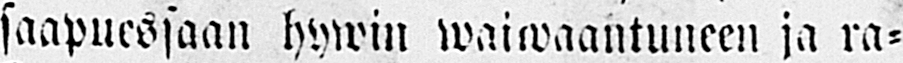saapuessaan hywin waiwaantuneen ja ra-
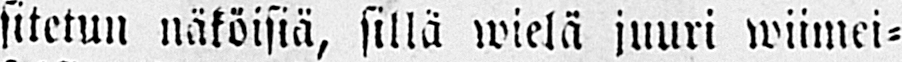sitetun näköisiä, sillä wielä juuri wiimei-
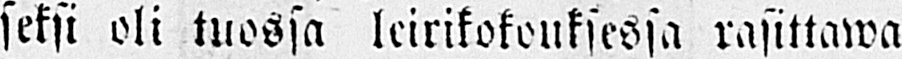seksi oli tuossa leirikokouksessa rasittawa
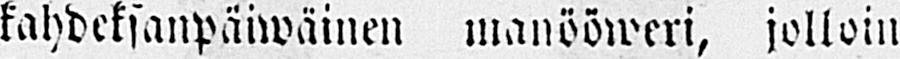kahdeksanpäiwäinen manööweri, jolloin
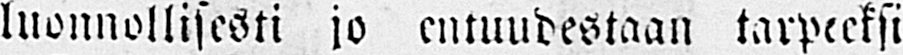luonnollisesti jo entuudestaan tarpeeksi
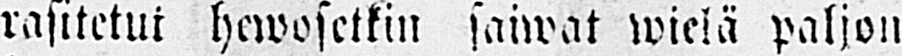rasitetut hewosetkin saiwat wielä paljon
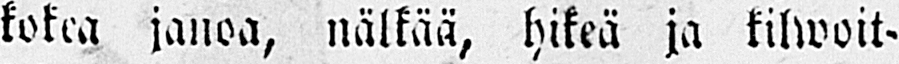kokea janoa, nälkää, hikeä ja kilwoit-
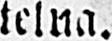telua.
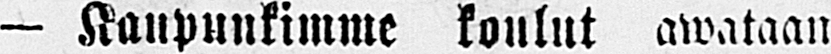— Kaupunkimme koulut awataan
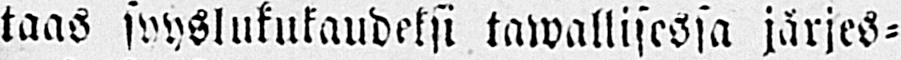taas syyslukukaudeksi tawallisessa järjes-
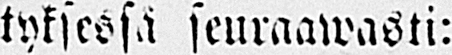tyksessä seuraawasti:
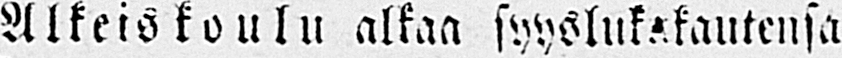Alkeiskoulu alkaa syyslukskautensa
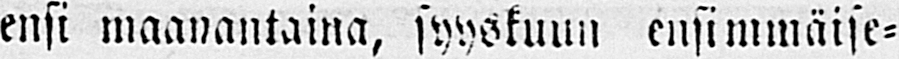ensi maanantaina, syyskuun ensimmäise-
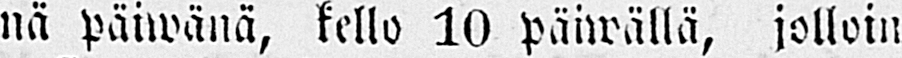nä päiwänä, kello 10 päiwällä, jolloin
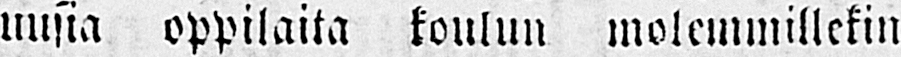uusia oppilaita koulun molemmillekin
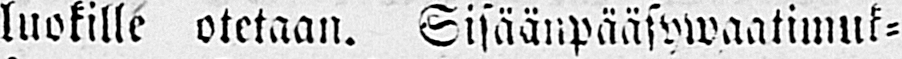luokille otetaan. Sisäänpääsywaatimuk-
